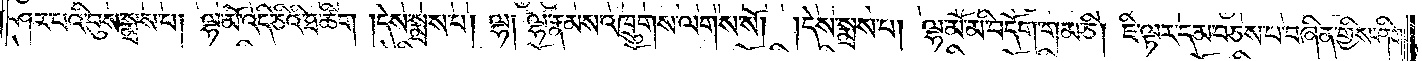ཤར་པའི་བུས་སྨྲས་པ། ལྷ་མོ་འདི་ཅིའི་ཐ་ཚིག །དེས་སྨྲས་པ། ལྷ། ལྷ་རྣམས་འཁྲུགས་ལགས་སོ། །དེས་སྨྲས་པ། ལྷ་མོ་མི་བདོག་གམ་ཅི། ཇི་ལྟར་དམ་བཅས་པ་བཞིན་གྱིས་ཤིག་
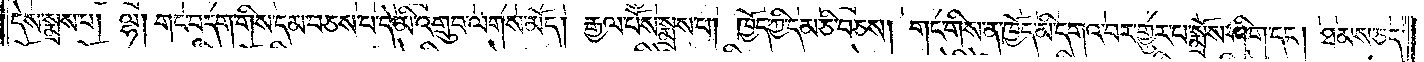དེས་སྨྲས་པ། ལྷ། གང་བདག་གིས་དམ་བཅས་པ་དེ་མི་འགྲུབ་ལགས་མོད། རྒྱལ་པོས་སྨྲས་པ། ཁྱོད་ཀྱི་དམ་ཅི་བཅས། གང་གིས་ན་ཁྱོད་མི་དགའ་བར་གྱུར་པ་སྨྲོས་ཤིག་དང༌། ཐམས་ཅད་
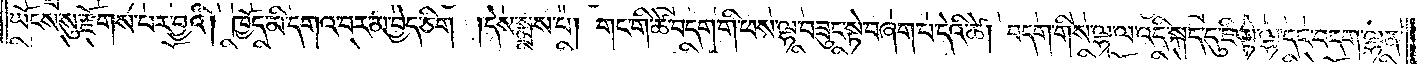ཡོངས་སུ་རྫོགས་པར་བྱའི། ཁྱོད་མི་དགའ་བར་མ་བྱེད་ཅིག །དེས་སྨྲས་པ། གང་གི་ཚེ་བདག་གི་ཕས་ལྷ་བཟུང་སྟེ་བཞག་པ་དེའི་ཚེ། བདག་གིས་ལྷ་ལ་འདི་སྐད་དུ་ཇི་སྟེ་ལྷ་དང་བདག་ལྷན་
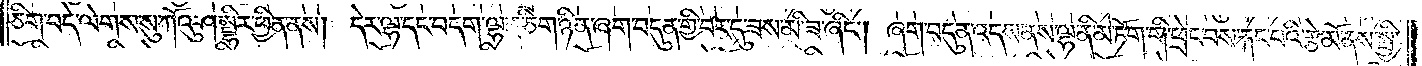ཅིག་བདེ་ལེགས་སུ་ཀོའུ་ཤམྦྷིར་ཕྱིན་ནས། དེར་ལྷ་དང་བདག་ལྷན་ཅིག་ཉིན་ཞག་བདུན་གྱི་བར་དུ་ཟས་མི་ཟ་ཞིང༌། ཞག་བདུན་འདས་ནས་ལྷ་ནི་མེ་ཏོག་གི་ཕྲེང་བས་རྐང་པའི་རྩེ་མོ་ནས་སྤྱི་
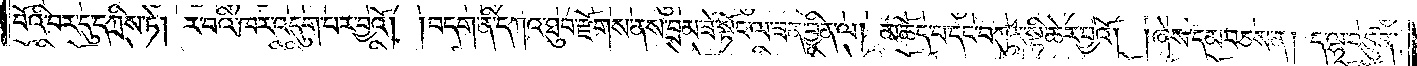བོའི་བར་དུ་དཀྲིས་ཏེ། ར་བའི་ཁར་འདུག་པར་བྱའོ། །བདག་ནི་དཀའ་ཐུབ་རྫོགས་ནས་བྲམ་ཟེ་སྟོང་ལ་ཟན་བྱིན་ལ། མཆོད་པ་དང་བཀུར་སྟི་ཆེར་བྱའོ། །ཞེས་དམ་བཅས་ན། ད་ལྷ་བཙུན་
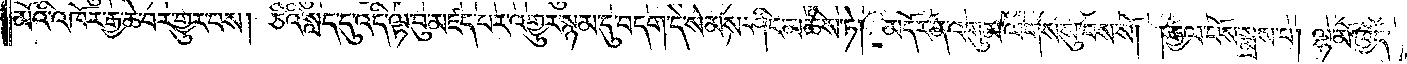མོའི་འཁོར་རྒྱ་ཆེ་བར་གྱུར་པས། ཅིའི་སླད་དུ་འདི་ལྟ་བུ་མཛད་པར་འགྱུར་སྙམ་དུ་བདག་དེ་སེམས་ཤིང་མཆིས་ཏེ། མདོར་ན་འགུམ་ལགས་སུ་བས་སོ། །རྒྱལ་པོས་སྨྲས་པ། ལྷ་མོ་ཁྱོད་
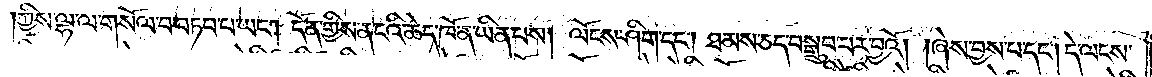ཀྱིས་ལྷ་ལ་གསོལ་བ་བཏབ་པ་ཡང༌། དོན་གྱིས་ན་ངའི་ཆེད་ཁོ་ན་ཡིན་པས། ལོངས་ཤིག་དང༌། ཐམས་ཅད་བསྒྲུབ་པར་བྱའོ། །ཞེས་བྱས་པ་དང༌། དེ་ལངས་
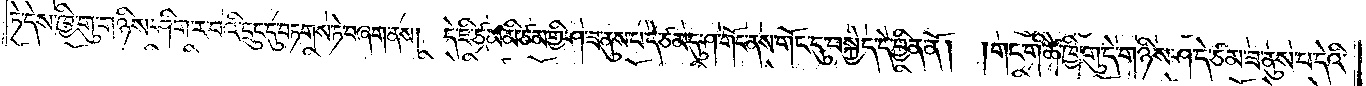ཏེ་དེས་ཁྱི་གུ་གཉིས་ཤིག་ར་བའི་དྲུང་དུ་བཏགས་ཏེ་བཞག་ནས། དེ་ཇི་ཙམ་མི་ཙམ་གྱི་ཤ་ཟ་ནུས་པ་དེ་ཙམ་དུ་ཤ་གོང་ནས་གོང་དུ་བསྐྱེད་དེ་བྱིན་ནོ། །གང་གི་ཚེ་ཁྱི་གུ་དེ་གཉིས་ཤ་དེ་ཙམ་ཟ་ནུས་པ་དེའི་
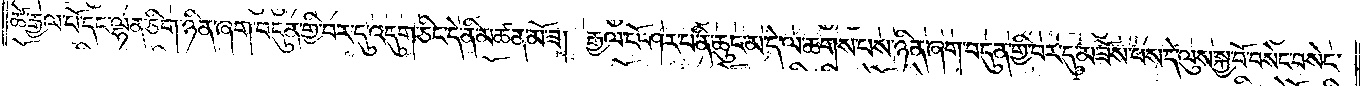ཚེ་རྒྱལ་པོ་དང་ལྷན་ཅིག་ཉིན་ཞག་བདུན་གྱི་བར་དུ་འདུག་ཅིང་དེ་ནི་མཚན་མོ་ཟ། རྒྱལ་པོ་ཤར་པ་ནི་ཆུང་མ་དེ་ལ་ཆགས་པས་ཉིན་ཞག་བདུན་གྱི་བར་དུ་མ་ཟོས་པས་དེ་ལུས་སྐྱ་བོ་བསེང་བསེང་
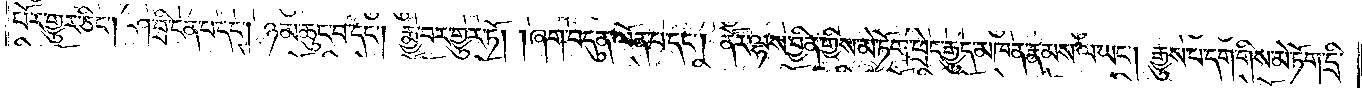པོར་གྱུར་ཅིང༌། ཤ་བྲི་ངན་པ་དང༌། ཉམ་ཆུང་བ་དང༌། རྨྱ་བར་གྱུར་ཏོ། །ཞག་བདུན་ལོན་པ་དང༌། ནོར་ལྷས་བྱིན་གྱིས་མེ་ཏོག་ཕྲེང་རྒྱུད་མཁན་རྣམས་ལ་ཡང༌། རྒྱུས་པ་དག་གིས་མེ་ཏོག་དྲི་
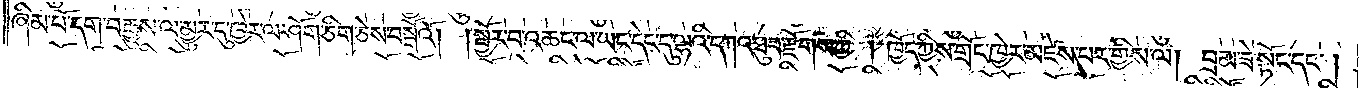ཞིམ་པོ་དག་བརྒྱུས་ལ་མྱུར་དུ་ཁྱེར་ལ་ཤོག་ཅིག་ཅེས་བསྒོའོ། །སྦྱོར་བ་འཆང་ལ་ཡང་དེང་དུ་ལྷའི་དཀའ་ཐུབ་རྫོགས་ཀྱི། ཁྱོད་ཀྱིས་གྲོང་ཁྱེར་མཛེས་པར་གྱིས་ལ། བྲམ་ཟེ་སྟོང་དང༌།
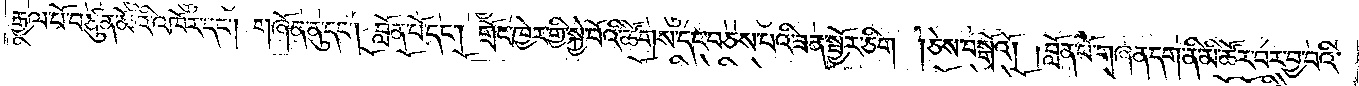རྒྱལ་པོ་བཙུན་མོའི་འཁོར་དང༌། གཞོན་ནུ་དང༌། བློན་པོ་དང༌། གྲོང་ཁྱེར་གྱི་སྐྱེ་བོའི་ཚོགས་དང་བཅས་པའི་ཟན་སྦྱོར་ཅིག །ཅེས་བསྒོའོ། །བློན་པོ་གཞན་དག་ནི་མི་ཚོར་བར་བྱ་བའི་
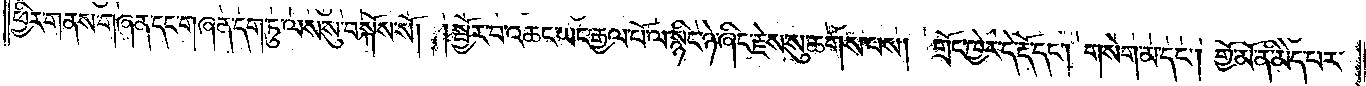ཕྱིར་གནས་གཞན་དང་གཞན་དག་ཏུ་ལས་སུ་བསྐོས་སོ། །སྦྱོར་བ་འཆང་ཡང་རྒྱལ་པོ་ལ་སྙིང་ཉེ་ཞིང་རྗེས་སུ་ཆགས་པས། གྲོང་ཁྱེར་དེ་རྡོ་དང༌། གསེག་མ་དང༌། གྱོ་མོ་ནི་མེད་པར་
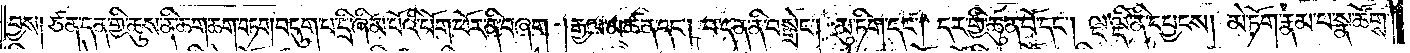བྱས། ཙན་དན་གྱི་ཆུས་ནི་ཆག་ཆག་བཏབ། བདུག་པ་དྲི་ཞིམ་པོའི་པོག་ཕོར་ནི་བཞག །རྒྱལ་མཚན་དང༌། བ་དན་ནི་བསྒྲེང༌། མུ་ཏིག་དང༌། དར་གྱི་ཆུན་པོ་དང༌། ལྡ་ལྡི་ནི་དབྱངས། མེ་ཏོག་རྣམ་པ་སྣ་ཚོགས་
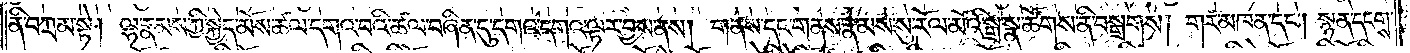ནི་བཀྲམ་སྟེ། ལྷ་རྣམས་ཀྱི་སྐྱེད་མོས་ཚལ་དགའ་བའི་ཚལ་བཞིན་དུ་དགའ་དགའ་ལྟར་བྱས་ནས། གནས་དང་གནས་རྣམས་སུ་རོལ་མོའི་སྒྲ་སྣ་ཚོགས་ནི་བསྒྲགས། གར་མཁན་དང༌། སྙན་དངགས་
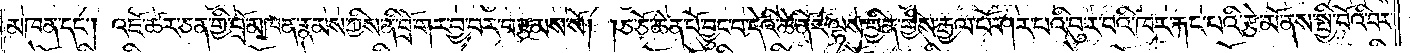མཁན་དང༌། འཇོ་ཚར་ཅན་གྱི་བྲོ་མཁན་རྣམས་ཀྱིས་ནི་བྲོ་གར་བྱ་བར་བརྩམས་སོ། །ཅ་ཅོ་ཆེན་པོ་བྱུང་བ་དེའི་ཚེ་ནོར་ལྷས་བྱིན་གྱིས་རྒྱལ་པོ་ཤར་པའི་བུ་ར་བའི་ཁར་རྐང་པའི་རྩེ་མོ་ནས་སྤྱི་བོའི་བར་
